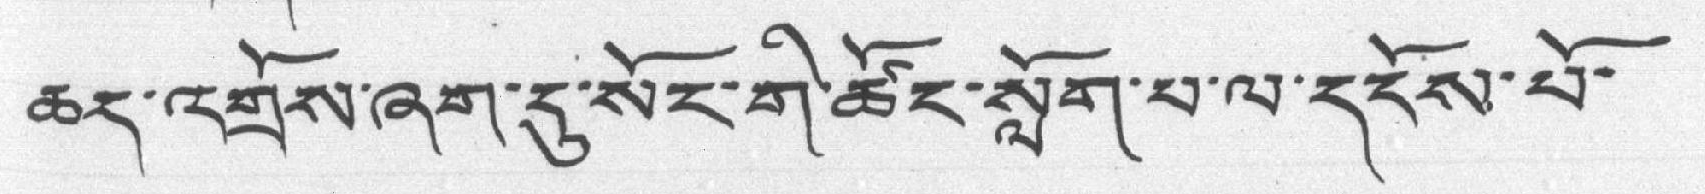ཆད་འགྲོས་ཞག་དུ་སོང་གི་ཚོང་སློག་པ་ལ་དངོས་པོ་
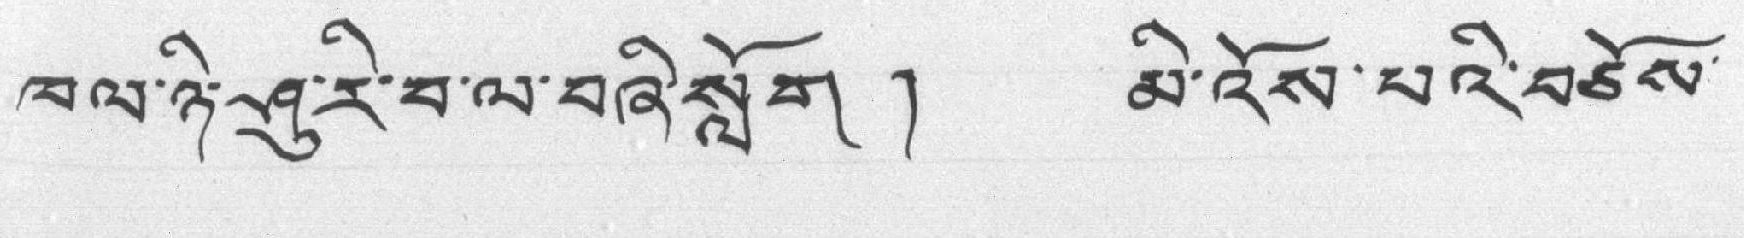ཁལ་ཉི་ཤུ་རི་བ་ལ་བཞི་སློག ། མི་འོས་པའི་བཅོས་
